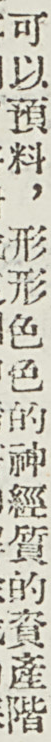可以預料，形形色色的神經質的資產階
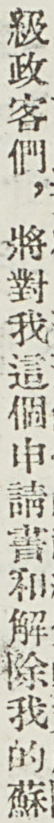級政客們，將對我這個申請書和解除我的蘇
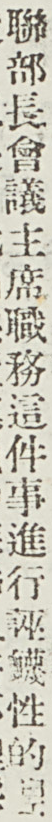聯部長會議主席職務這件事進行誣衊性的捏
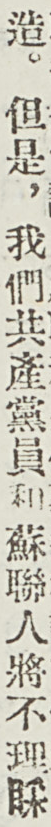造。但是，我們共產黨員和蘇聯人將不理睬
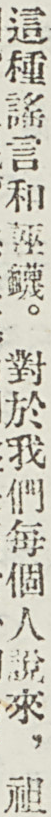這種謠言和誣衊。對於我們每個人來說，祖
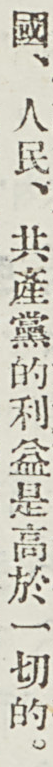國、人民、共產黨的利益是高於一切的。
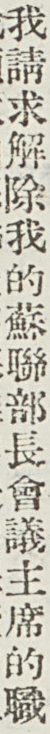我請求解除我的蘇聯部長會議主席的職
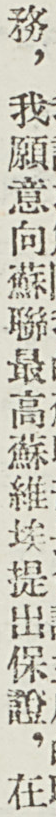務，我願意向蘇聯最高蘇維埃提出保證，在
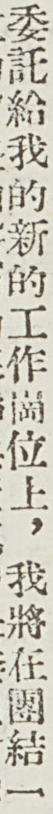委託給我的新的工作崗位上，我將在團結一
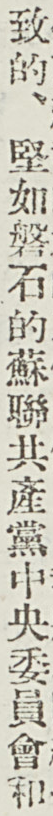致的、堅如磐石的蘇聯共產黨中央委員會和
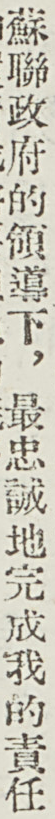蘇聯政府的領導下，最忠誠地完成我的責任
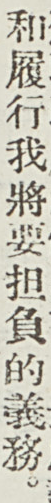和履行我將要担負的義務。
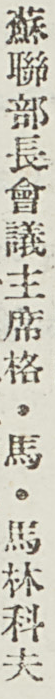蘇聯部長會議主席格・馬・馬林科夫
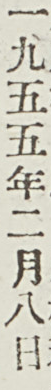一九五五年二月八日
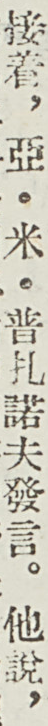接着，亞・米・普扎諾夫發言。他說，
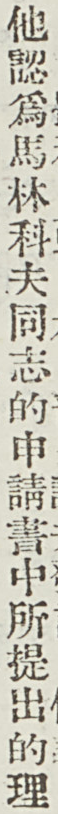他認爲馬林科夫同志的申請書中所提出的理
